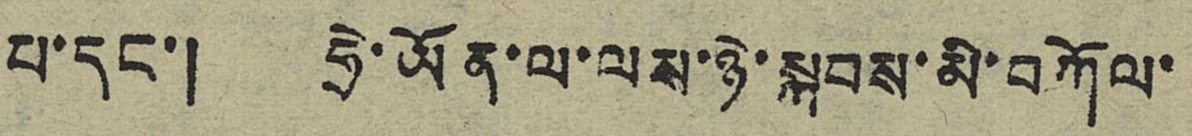པ་དང་། ཧྲེ་ཡོན་ལ་ལས་ཉེ་སྐབས་མི་བཀོལ་
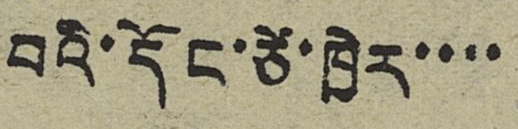བའི་དོང་ཙེ་ཁྱེར་་་་
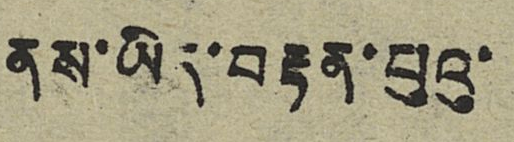ནས་ཡིད་བརྟན་པུའུ་
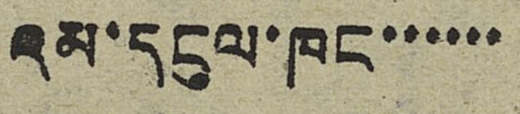འམ་དངུལ་ཁང་་་་་་
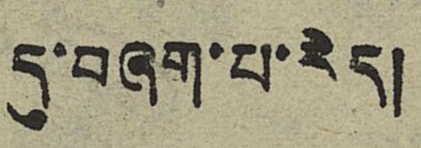དུ་བཞག་པ་རེད།
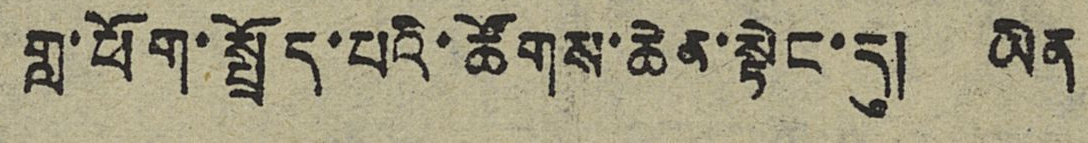གླ་ཕོག་སྤྲོད་པའི་ཚོགས་ཆེན་སྟེང་དུ། ཡིན་
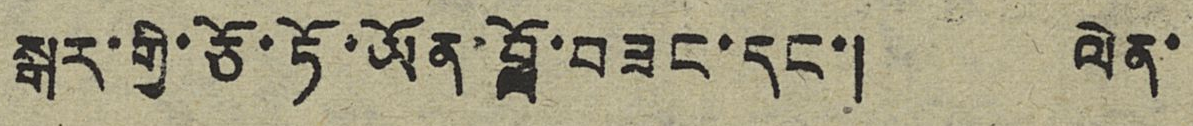སྒར་གྱི་ཅོ་ཏོ་ཡོན་བློ་བཟང་དང་། ལེན་
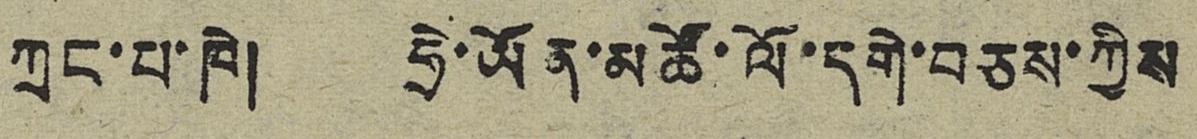ཀྲང་པ་ཁེ། ཧྲེ་ཡོན་མཚོ་ལོ་དགེ་བཅས་ཀྱིས
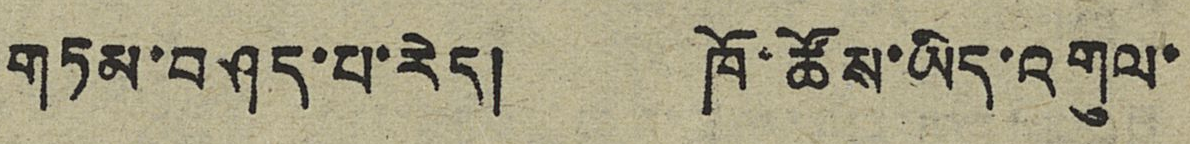གཏམ་བཤད་པ་རེད། ཁོ་ཚོས་ཡིད་འགུལ་
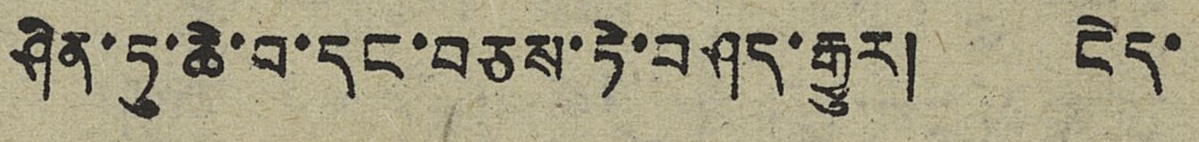ཤིན་ཏུ་ཆེ་བ་དང་བཅས་ཏེ་བཤད་རྒྱུར། ངེད་
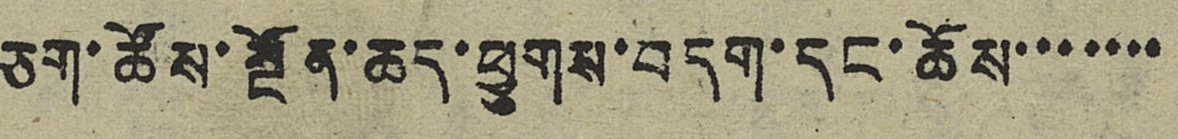ཅག་ཚོས་སྔོན་ཆད་ཕྱུགས་བདག་དང་ཆོས་་་་་་་
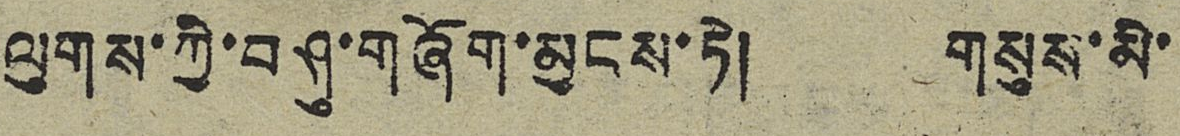ལུགས་ཀྱི་བཤུ་གཞོག་མྱངས་ཏེ། གསུས་མི་
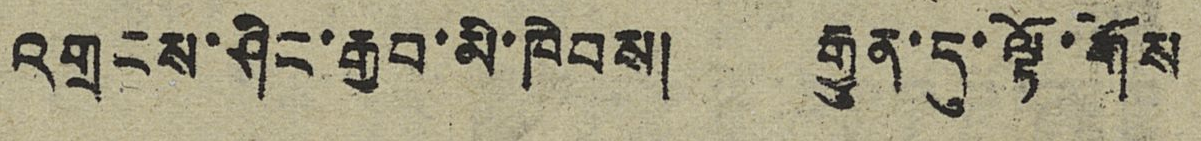འགྲངས་ཤིང་རྒྱབ་མི་ཁེབས། རྒྱུན་དུ་ལྟོ་གོས
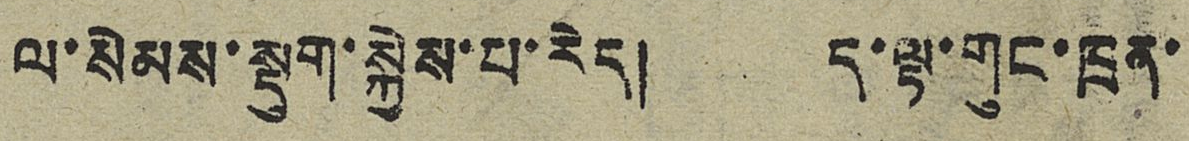ལ་སེམས་སྡུག་སྐྱེས་པ་རེད། ད་ལྟ་གུང་ཁྲན་
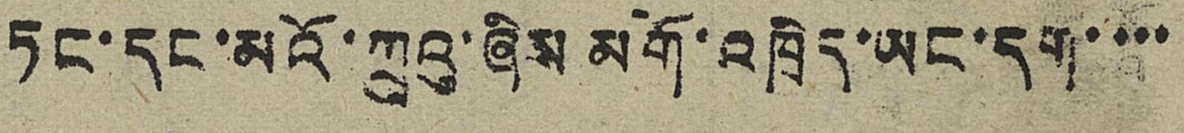ཏང་དང་མའོ་ཀྲུའུ་ཞིས་མགོ་འཁྲིད་ཡང་དག་་་་
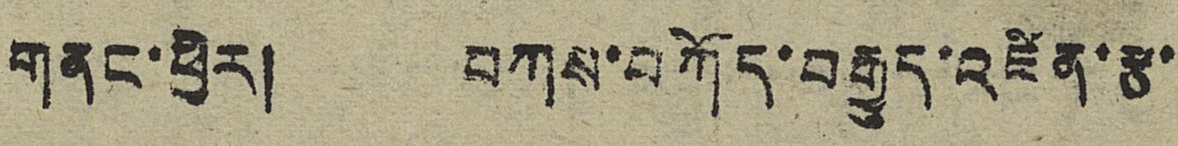གནང་ཕྱིར། བཀས་བཀོད་བརྒྱུད་འཛིན་རྩ་
